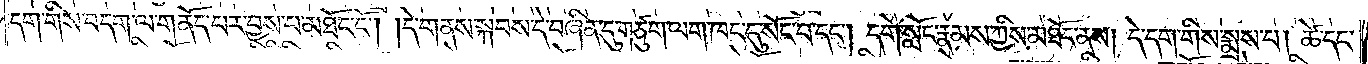དག་གིས་བདག་ལ་གནོད་པར་བྱས་པ་མཐོང་ངོ༌། །དེ་གནས་སྐབས་དེ་བཞིན་དུ་གཙུག་ལག་ཁང་དུ་སོང་བ་དང༌། དགེ་སློང་རྣམས་ཀྱིས་མཐོང་ནས། དེ་དག་གིས་སྨྲས་པ། ཚེ་དང་
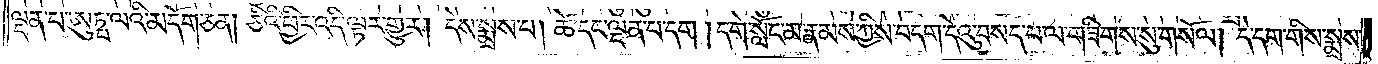ལྡན་པ་ཨུཏྤ་ལའི་མདོག་ཅན། ཅིའི་ཕྱིར་འདི་ལྟར་གྱུར། དེས་སྨྲས་པ། ཚེ་དང་ལྡན་པ་དག །དགེ་སློང་མ་རྣམས་ཀྱིས་བདག་དེའུ་བསད་པ་ལ་གཟིགས་སུ་གསོལ། དེ་དག་གིས་སྨྲས་
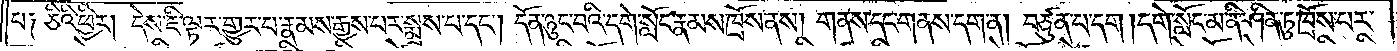པ༑ ཅིའི་ཕྱིར། དེས་ཇི་ལྟར་གྱུར་པ་རྣམས་རྒྱས་པར་སྨྲས་པ་དང༌། དོན་ཉུང་བའི་དགེ་སློང་རྣམས་ཁྲོས་ནས། གནས་དང་གནས་དག་ན། བཙུན་པ་དག །དགེ་སློང་མ་ནི་ཤིན་ཏུ་ཁྲོས་པར་
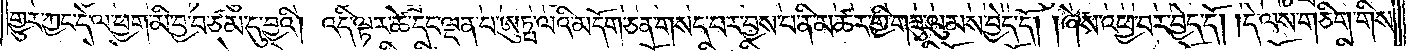གྱུར་ཀྱང་དེ་ལ་ཕྱག་མི་བྱ་བ་ཙམ་དུ་བྱའི། འདི་ལྟར་ཚེ་དང་ལྡན་པ་ཨུཏྤ་ལའི་མདོག་ཅན་གསད་པར་བྱས་པ་ནི་མཚར་གྱིས་གཟུ་ལུམས་བྱེད་དོ། །ཞེས་འཕྱ་བར་བྱེད་དོ། །དེ་ལས་གཅིག་གིས་
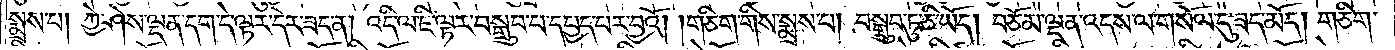སྨྲས་པ། ཀྱེ་ཤེས་ལྡན་དག་དེ་ལྟར་དེར་ཟད་ན། འདི་ལ་ཇི་ལྟར་བསྒྲུབ་པ་དཔྱད་པར་བྱའོ། །གཅིག་གིས་སྨྲས་པ། བསྒྲུབ་ཏུ་ཅི་ཡོད། བཅོམ་ལྡན་འདས་ལ་གསོལ་དུ་ཟད་མོད། གཅིག་
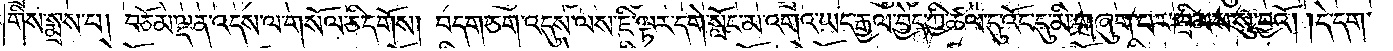གིས་སྨྲས་པ། བཅོམ་ལྡན་འདས་ལ་གསོལ་ཅི་དགོས། བདག་ཅག་འདུས་ལས་ཇི་ལྟར་དགེ་སློང་མ་འགའ་ཡང་རྒྱལ་བྱེད་ཀྱི་ཚལ་དུ་འོང་དུ་མི་གཞུག་པར་ཁྲིམས་སུ་བྱའོ། །དེ་དག་
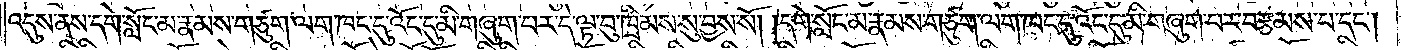འདུས་ནས་དགེ་སློང་མ་རྣམས་གཙུག་ལག་ཁང་དུ་འོང་དུ་མི་གཞུག་པར་དེ་ལྟ་བུ་ཁྲིམས་སུ་བྱས་སོ། །དགེ་སློང་མ་རྣམས་གཙུག་ལག་ཁང་དུ་འོང་དུ་མི་གཞུག་པར་བརྩམས་པ་དང༌།
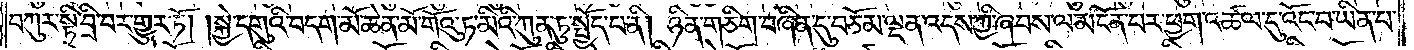བཀུར་སྟི་བྲི་བར་གྱུར་ཏོ། །སྐྱེ་དགུའི་བདག་མོ་ཆེན་མོ་གོའུ་ཏ་མིའི་ཀུན་ཏུ་སྤྱོད་པ་ནི། ཉིན་གཅིག་བཞིན་དུ་བཅོམ་ལྡན་འདས་ཀྱི་ཞབས་ལ་མངོན་པར་ཕྱག་འཚལ་དུ་འོང་བ་ཡིན་པ་
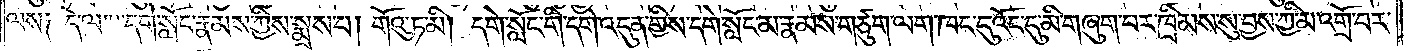ལས༑ དེ་ལ་དགེ་སློང་རྣམས་ཀྱིས་སྨྲས་པ། གོའུ་ཏ་མི། དགེ་སློང་གི་དགེ་འདུན་གྱིས་དགེ་སློང་མ་རྣམས་གཙུག་ལག་ཁང་དུ་འོང་དུ་མི་གཞུག་པར་ཁྲིམས་སུ་བྱས་ཀྱི་མ་འགྲོ་བར་
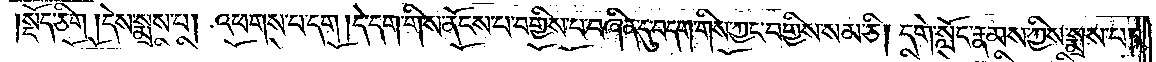སྡོད་ཅིག །དེས་སྨྲས་པ། འཕགས་པ་དག །དེ་དག་གིས་ནོངས་པ་བགྱིས་པ་བཞིན་དུ་བདག་གིས་ཀྱང་བགྱིས་སམ་ཅི། དགེ་སློང་རྣམས་ཀྱིས་སྨྲས་པ།
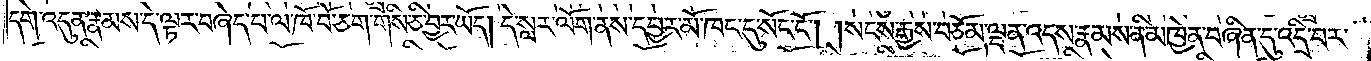དགེ་འདུན་རྣམས་དེ་ལྟར་བཞེད་པ་ལ་ཁོ་བོ་ཅག་གིས་ཅི་བྱར་ཡོད། དེ་སླར་ལོག་ནས་དབྱར་མོ་ཁང་དུ་སོང་ངོ༌། །སངས་རྒྱས་བཅོམ་ལྡན་འདས་རྣམས་ནི་མཁྱེན་བཞིན་དུ་འདྲི་བར་
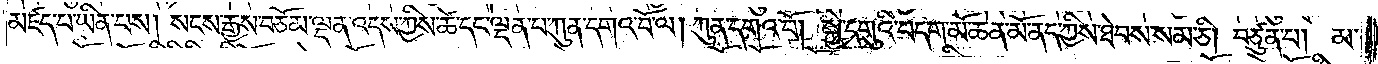མཛད་པ་ཡིན་པས། སངས་རྒྱས་བཅོམ་ལྡན་འདས་ཀྱིས་ཚེ་དང་ལྡན་པ་ཀུན་དགའ་བོ་ལ། ཀུན་དགའ་བོ། སྐྱེ་དགུའི་བདག་མོ་ཆེན་མོ་ནད་ཀྱིས་ཐེབས་སམ་ཅི། བཙུན་པ། མ་
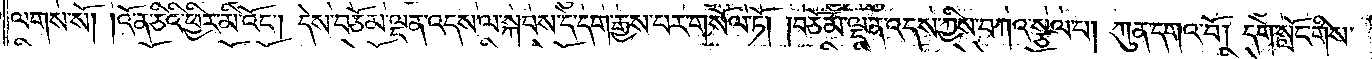ལགས་སོ། །འོ་ན་ཅིའི་ཕྱིར་མི་འོང༌། དེས་བཅོམ་ལྡན་འདས་ལ་སྐབས་དེ་དག་རྒྱས་པར་གསོལ་ཏོ། །བཅོམ་ལྡན་འདས་ཀྱིས་བཀའ་སྩལ་པ། ཀུན་དགའ་བོ། དགེ་སློང་གིས་
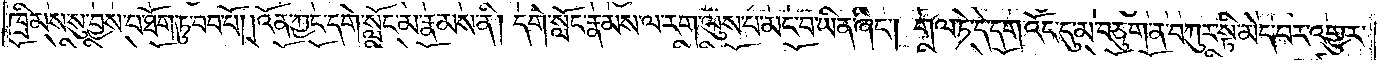ཁྲིམས་སུ་བྱས་པ་ཐོག་ཏུ་བབ་པོ། །འོན་ཀྱང་དགེ་སློང་མ་རྣམས་ནི། དགེ་སློང་རྣམས་ལ་རག་ལུས་པ་མང་བ་ཡིན་ཞིང༌། གལ་ཏེ་དེ་དག་འོང་དུ་མ་བཅུག་ན་བཀུར་སྟི་མེད་པར་འགྱུར་
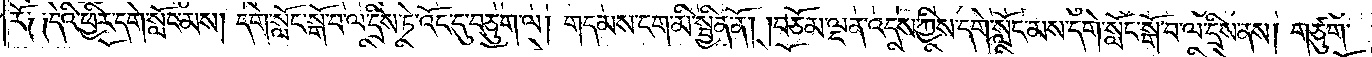རོ༑ ༑དེའི་ཕྱིར་དགེ་སློང་མས། དགེ་སློང་སྒོ་བ་ལ་དྲིས་ཏེ་འོང་དུ་བཅུག་ལ། གདམས་ངག་མི་སྦྱིན་ནོ། །བཅོམ་ལྡན་འདས་ཀྱིས་དགེ་སློང་མས་དགེ་སློང་སྒོ་བ་ལ་དྲིས་ནས། གཙུག་
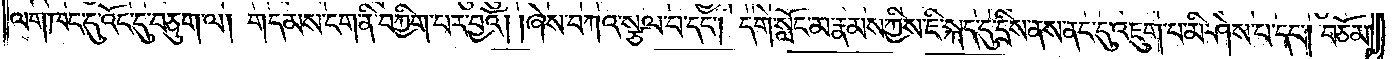ལག་ཁང་དུ་འོང་དུ་བཅུག་ལ། གདམས་ངག་ནི་བཀྱིག་པར་བྱའོ། །ཞེས་བཀའ་སྩལ་པ་དང༌། དགེ་སློང་མ་རྣམས་ཀྱིས་ཇི་སྐད་དུ་དྲིས་ནས་ནང་དུ་འཇུག་པ་མི་ཤེས་པ་དང༌། བཅོམ་
